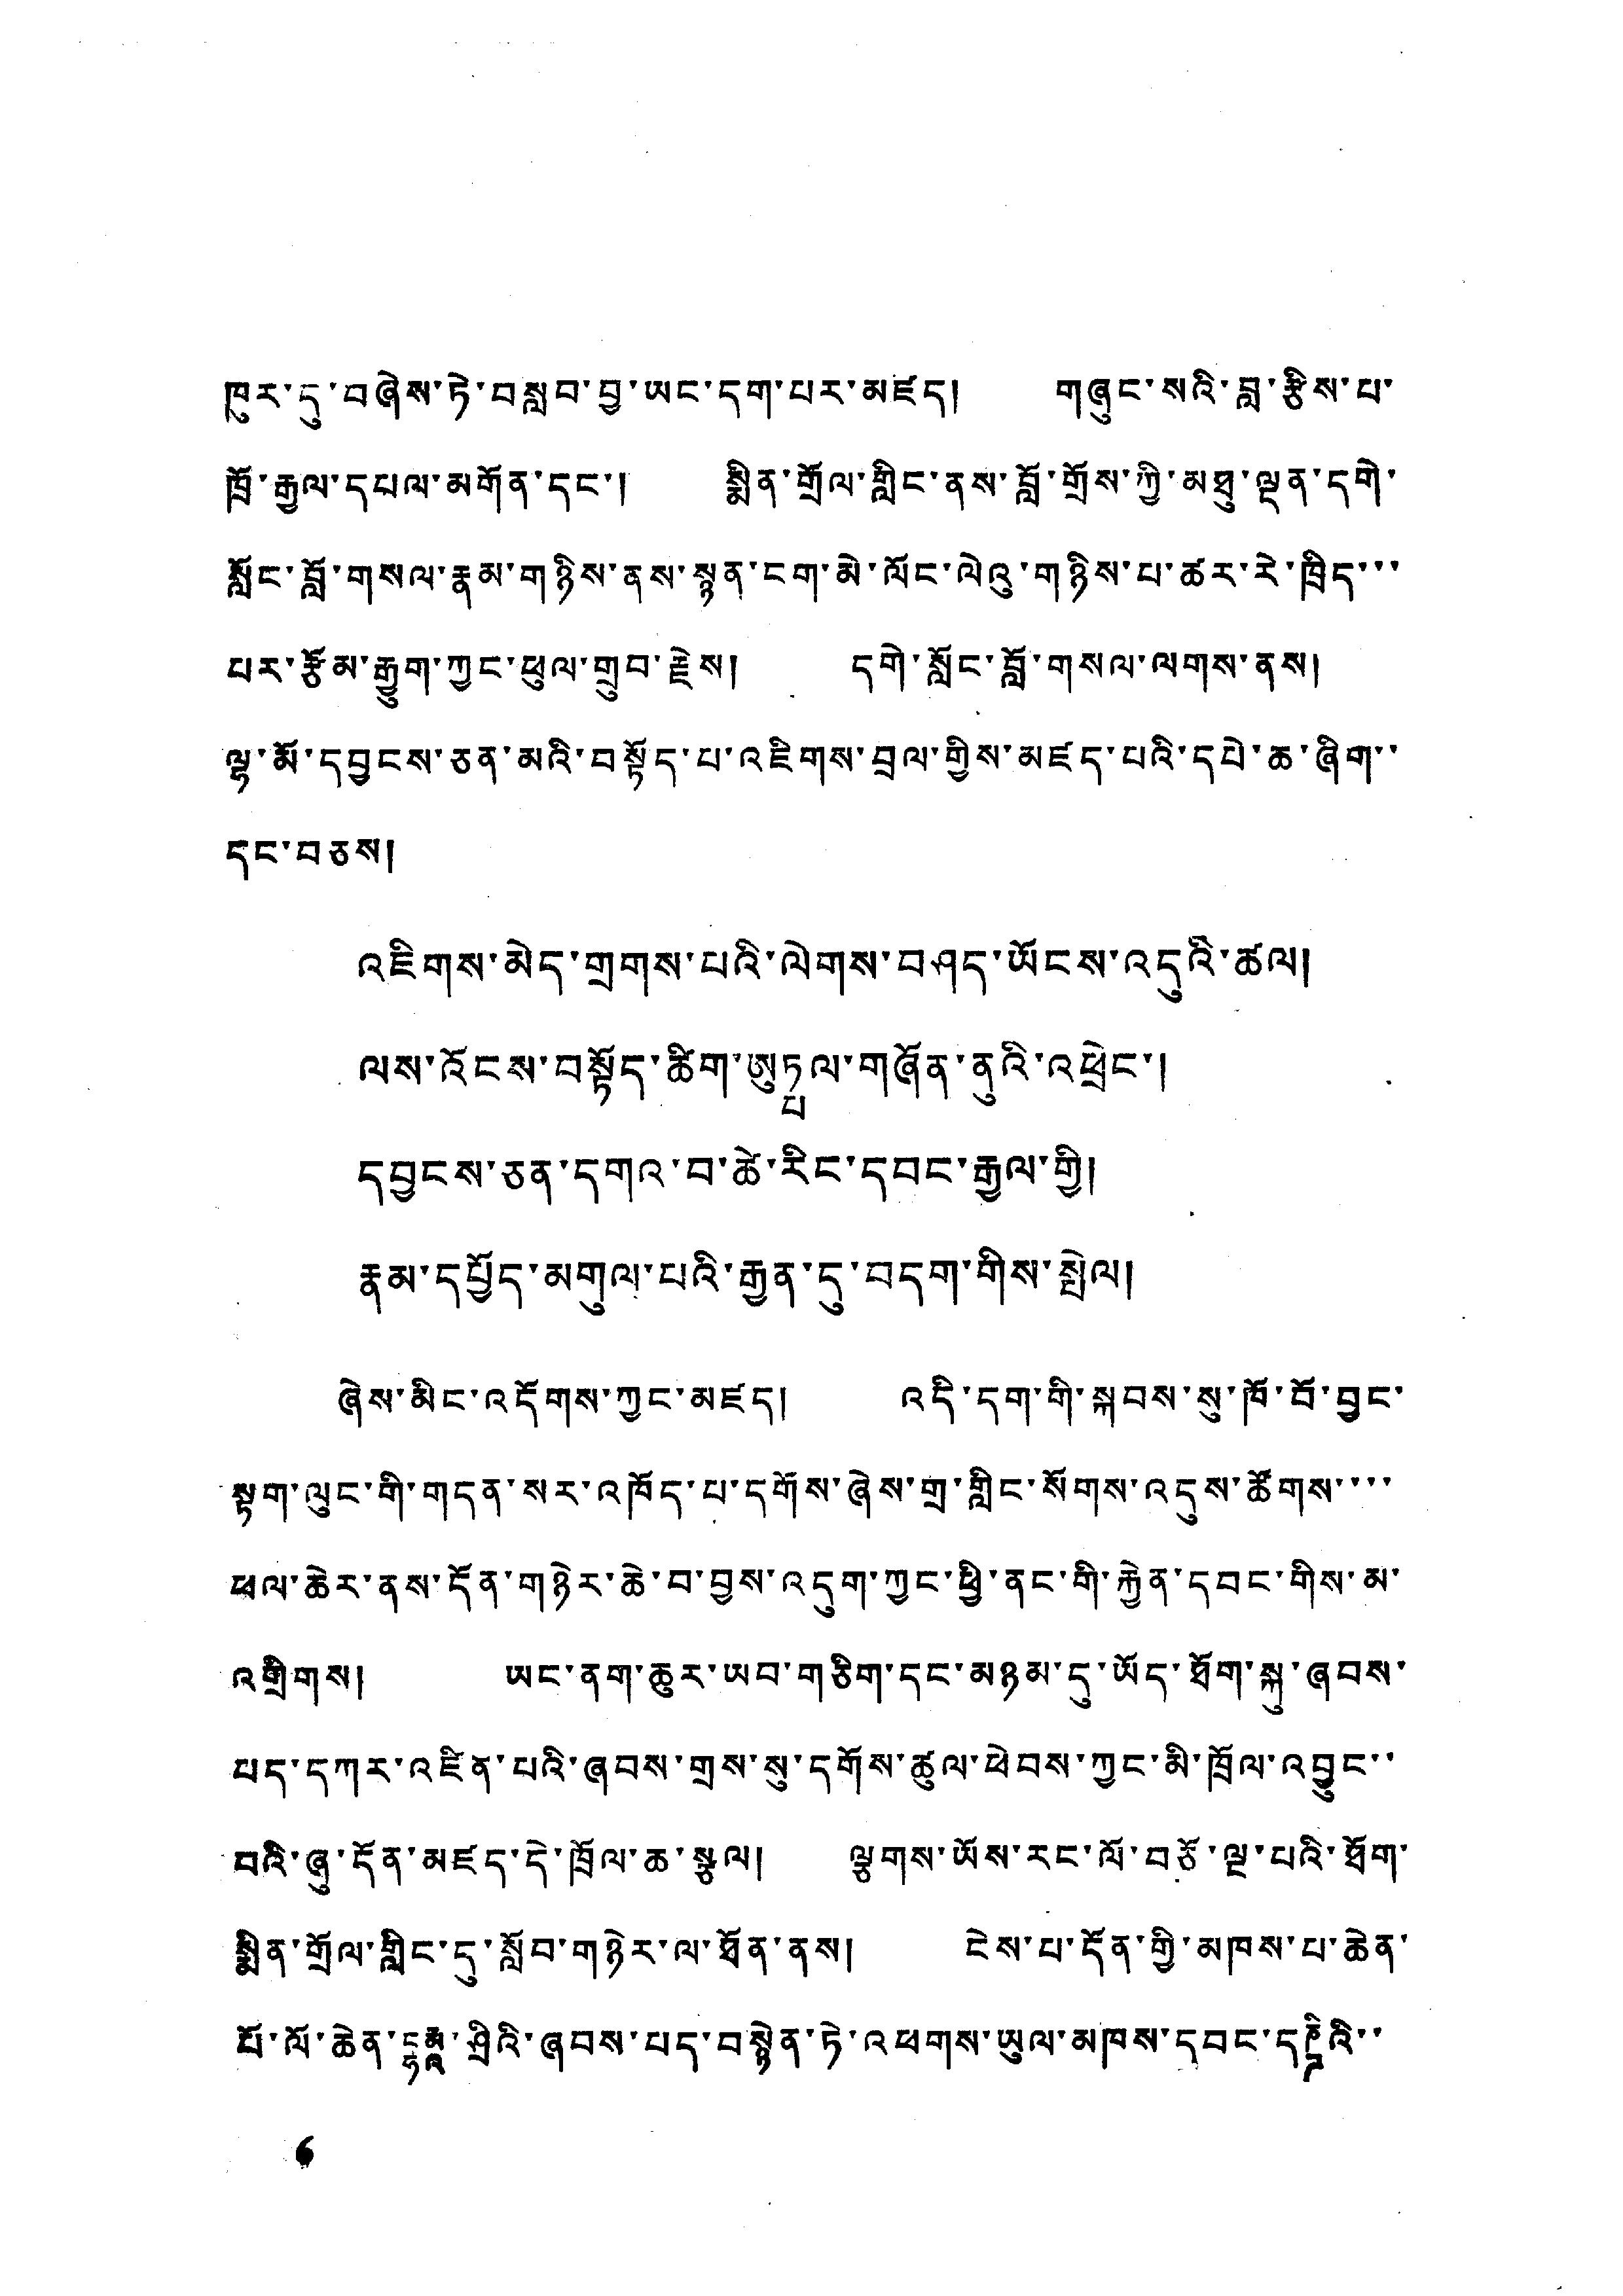ཁུར་དུ་བཞེས་ཏེ་བསླབ་བྱ་ཡང་དག་པར་མཛད། གཞུང་སའི་བླ་རྩིས་པ་
ཁོ་རྒྱལ་དཔལ་མགོན་དང་། སྨིན་གྲོལ་གླིང་ནས་བློ་གྲོས་ཀྱི་མཐུ་ལྡན་དགེ་
སློང་བློ་གསལ་རྣམ་གཉིས་ནས་སྙན་ངག་མེ་ལོང་ལེའུ་གཉིས་པ་ཚར་རེ་ཁྲིད་་་
པར་རྩོམ་རྒྱུག་ཀྱང་ཕུལ་གྲུབ་རྗེས། དགེསློང་བློ་གསལ་ལགས་ནས།
ལྷ་མོ་དབྱངས་ཅན་མའི་བསྟོད་པ་འཇིགས་བྲལ་གྱིས་མཛད་པའི་དཔེ་ཆ་ཞིག་་
དང་བཅས།
འཇིགས་མེད་གྲགས་པའི་ལེགས་བཤད་ཡོངས་འདུའི་ཚལ།
ལས་འོངས་བསྟོད་ཚིག་ཨུཏྤལ་གཞོན་ནུའི་འཕྲེང་།
དབྱངས་ཅན་དགའ་བ་ཚེ་རིང་དབང་རྒྱལ་གྱི།
རྣམ་དཔྱོད་མགུལ་པའི་རྒྱུན་དུ་བདག་གིས་སྤེལ།
ཞེས་མིང་འདོགས་ཀྱང་མཛད། འདི་དག་གི་སྐབས་སུ་ཁོ་བོ་བྱང་
སྟག་ལུང་གི་གདན་སར་འཁོད་པ་དགོས་ཞེས་གྲ་གླིང་སོགས་འདུས་ཚོགས་་་་
ཕལ་ཆེར་ནས་དོན་གཉེར་ཆེ་བ་བྱས་འདུག་ཀྱང་ཕྱི་ནང་གི་རྐྱེན་དབང་གིས་མ་་
འགྲིགས། ཡང་ནག་ཆུར་ཡབ་གཅིག་དང་མཉམ་དུ་ཡོད་ཐོག་སྐུ་ཞབས་
པད་དཀར་འཛིན་པའི་ཞབས་གྲས་སུ་དགོས་ཚུལ་ཕེབས་ཀྱང་མི་ཁྲོལ་འབྱུང་་
བའི་ཞུ་དོན་མཛད་དེ་ཁྲོལ་ཆ་སྩལ། ལྕགས་ཡོས་རང་ལོ་བཅོ་ལྔ་པའི་ཐོག་་
སྨིན་གྲོལ་གླིང་དུ་སློབ་གཉེར་ལ་ཐོན་ནས། ངེས་པ་དོན་གྱི་མཁས་པ་ཆེན་
པོ་ལོ་ཆེན་དྷརྨཱ་ཤྲིའི་ཞབས་པད་བསྙེན་ཏེ་འཕགས་ཡུལ་མཁས་དབང་དཎྜིའི་་
6
